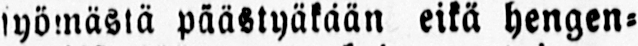syömästä päästyäkään eikä hengen-
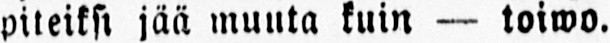piteiksi jää muuta kuin — toiwo.
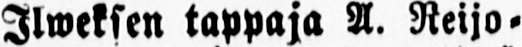Ilweksen tappaja A. Reijo-
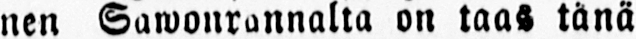nen Sawonrannalta on taas tänä
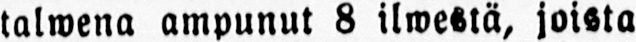talwena ampunut 8 ilwestä, joista
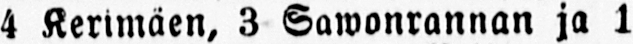4 Kerimäen, 3 Sawonrannan ja 1
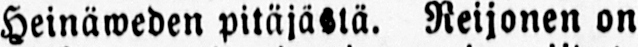Heinäweden pitäjästä. Reijonen on
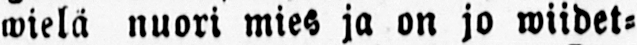wielä nuori mies ja on jo wiidet-
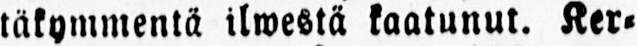täkymmentä ilwestä kaatunut. Ker-
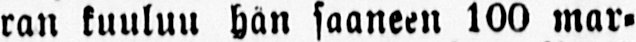ran kuuluu hän saaneen 100 mar-
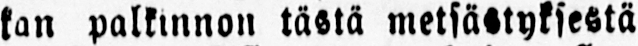kan palkinnon tästä metsästyksestä
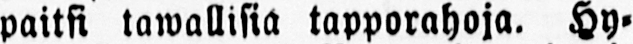paitsi tawallisia tapporahoja. Hy-
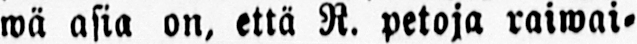wä asia on, että R. petoja raiwai-
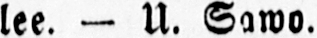lee. — U. Sawo.
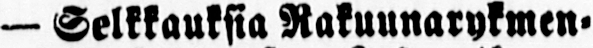— Selkkauksia Rakuunarykmen-
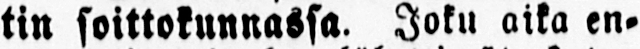tin soittokunnassa. Joku aika en-
